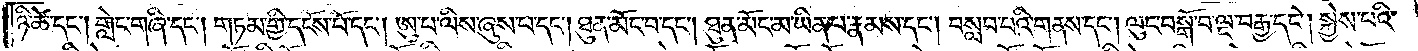ཉི་ཚེ་དང༌། གླེང་གཞི་དང༌། གཏམ་གྱི་དངོས་པོ་དང༌། ཨུ་པ་ལིས་ཞུས་པ་དང༌། ཐུན་མོང་བ་དང༌། ཐུན་མོང་མ་ཡིན་པ་རྣམས་དང༌། བསླབ་པའི་གནས་དང༌། ལུང་བསྒོ་བ་ལྔ་བརྒྱ་དང༌། སྐྱེས་པའི་
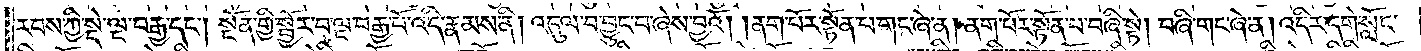རབས་ཀྱི་སྡེ་ལྔ་བརྒྱ་དང༌། སྔོན་གྱི་སྦྱོར་བ་ལྔ་བརྒྱ་པོ་འདི་རྣམས་ནི། འདུལ་བ་བྱུང་བ་ཞེས་བྱའོ། །ནག་པོར་སྟོན་པ་གང་ཞེ་ན། ནག་པོར་སྟོན་པ་བཞི་སྟེ། བཞི་གང་ཞེ་ན། འདིར་དགེ་སློང་
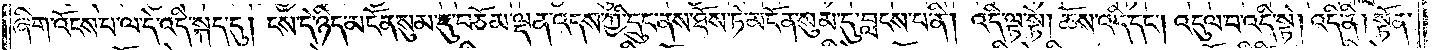ཞིག་འོངས་པ་ལ་དེ་འདི་སྐད་དུ། ངས་དེ་ཉིད་མངོན་སུམ་དུ་བཅོམ་ལྡན་འདས་ཀྱི་དྲུང་ནས་ཐོས་ཏེ་མངོན་སུམ་དུ་བླངས་པ་ནི། འདི་ལྟ་སྟེ། ཆོས་འདི་དང༌། འདུལ་བ་འདི་སྟེ། འདི་ནི། སྟོན་
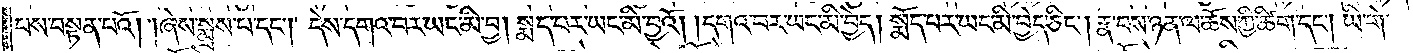པས་བསྟན་པའོ། །ཞེས་སྨྲས་པ་དང༌། དེས་དགའ་བར་ཡང་མི་བྱ། སྨད་པར་ཡང་མི་བྱའོ། །དགའ་བར་ཡང་མི་བྱེད། སྨོད་པར་ཡང་མི་བྱེད་ཅིང༌། རྣ་བས་ཉན་ལ་ཆོས་ཀྱི་ཚིག་དང༌། ཡི་གེ་
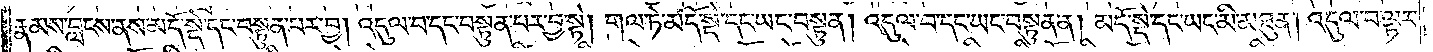རྣམས་བླངས་ནས་མདོ་སྡེ་དང་བསྟུན་པར་བྱ། འདུལ་བ་དང་བསྟུན་པར་བྱ་སྟེ། གལ་ཏེ་མདོ་སྡེ་དང་ཡང་བསྟུན། འདུལ་བ་དང་ཡང་བསྟུན་ན། མདོ་སྡེ་དང་ཡང་མི་མཐུན། འདུལ་བ་ལྟར་
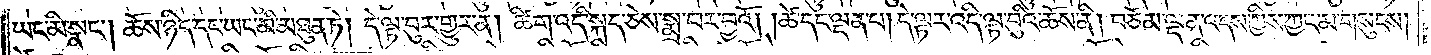ཡང་མི་སྣང༌། ཆོས་ཉིད་དང་ཡང་མི་མཐུན་ཏེ། དེ་ལྟ་བུར་གྱུར་ན། ཚིག་འདི་སྐད་ཅེས་སྨྲ་བར་བྱའོ། །ཚེ་དང་ལྡན་པ། དེ་ལྟར་འདི་ལྟ་བུའི་ཆོས་ནི། བཅོམ་ལྡན་འདས་ཀྱིས་ཀྱང་མ་གསུངས།
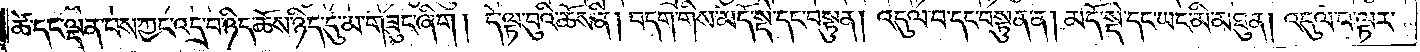ཚེ་དང་ལྡན་པས་ཀྱང་འདྲ་བ་ཉིད་ཆོས་ཉིད་དུ་མ་གཟུང་ཞིག། དེ་ལྟ་བུའི་ཆོས་ནི། བདག་གིས་མདོ་སྡེ་དང་བསྟུན། འདུལ་བ་དང་བསྟུན་ན། མདོ་སྡེ་དང་ཡང་མི་མཐུན། འདུལ་བ་ལྟར་
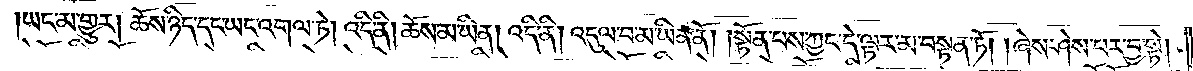ཡང་མ་གྱུར། ཆོས་ཉིད་དང་ཡང་འགལ་ཏེ། འདི་ནི། ཆོས་མ་ཡིན། འདི་ནི། འདུལ་བ་མ་ཡིན། སྟོན་པས་ཀྱང་དེ་ལྟར་མ་བསྟན་ཏོ། །ཞེས་ཤེས་པར་བྱ་སྟེ།
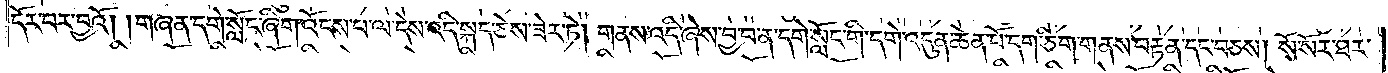དོར་བར་བྱའོ། །གཞན་དགེ་སློང་ཞིག་འོངས་པ་ལ་དེས་འདི་སྐད་ཅེས་ཟེར་ཏེ། གནས་འདི་ཞེས་བྱ་བ་ན་དགེ་སློང་གི་དགེ་འདུན་ཆེན་པོ་དག་ཅིག་གནས་བརྟན་དང་བཅས། སོ་སོར་ཐར་
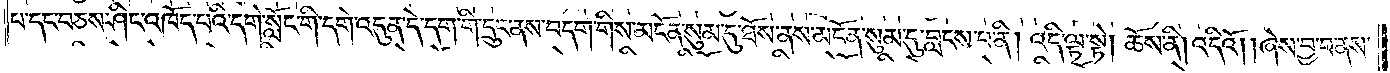པ་དང་བཅས་ཤིང་འཁོད་པའི་དགེ་སློང་གི་དགེ་འདུན་དེ་དག་གི་དྲུང་ནས་བདག་གིས་མངོན་སུམ་དུ་ཐོས་ནས་མངོན་སུམ་དུ་བླངས་པ་ནི། འདི་ལྟ་སྟེ། ཆོས་ནི། འདིའོ། །ཞེས་བྱ་བ་ནས་
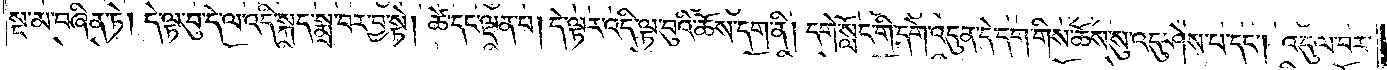སྔ་མ་བཞིན་ཏེ། དེ་ལྟ་བུ་དེ་ལ་འདི་སྐད་སྨྲ་བར་བྱ་སྟེ། ཚེ་དང་ལྡན་པ། དེ་ལྟར་འདི་ལྟ་བུའི་ཆོས་དག་ནི། དགེ་སློང་གི་དགེ་འདུན་དེ་དག་གིས་ཆོས་སུ་འདུ་ཤེས་པ་དང༌། འདུལ་བར་
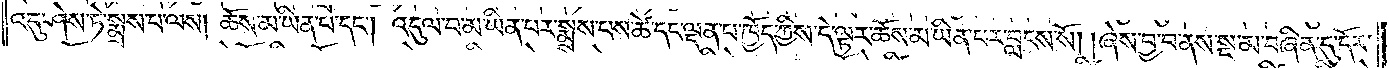འདུ་ཤེས་ཏེ་སྨྲས་པ་ལས། ཆོས་མ་ཡིན་པ་དང༌། འདུལ་བ་མ་ཡིན་པར་སྨྲས་པས་ཚེ་དང་ལྡན་པ་ཁྱོད་ཀྱིས་དེ་ལྟར་ཆོས་མ་ཡིན་པར་བླངས་སོ། །ཞེས་བྱ་བ་ནས་སྔ་མ་བཞིན་དུ་དོར་
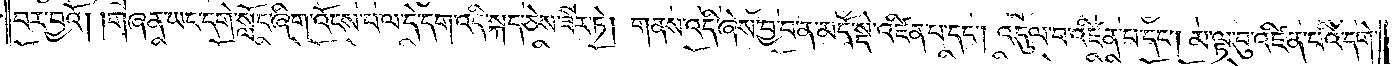བར་བྱའོ། །གཞན་ཡང་དགེ་སློང་ཞིག་འོངས་པ་ལ་དེ་དག་འདི་སྐད་ཅེས་ཟེར་ཏེ། གནས་འདི་ཞེས་བྱ་བ་ན་མདོ་སྡེ་འཛིན་པ་དང༌། འདུལ་བ་འཛིན་པ་དང༌། མ་ལྟ་བུ་འཛིན་པའི་དགེ་
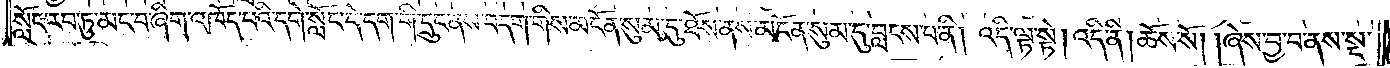སློང་རབ་ཏུ་མང་བ་ཞིག་འཁོད་པའི་དགེ་སློང་དེ་དག་གི་དྲུང་ནས་བདག་གིས་མངོན་སུམ་དུ་ཐོས་ནས་མངོན་སུམ་དུ་བླངས་པ་ནི། འདི་ལྟ་སྟེ། འདི་ནི། ཆོས་སོ། །ཞེས་བྱ་བ་ནས་སྔ་
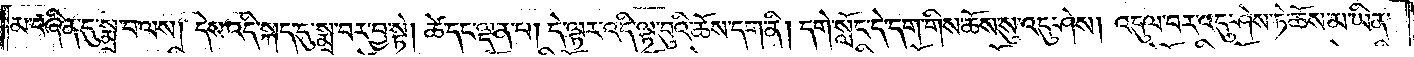མ་བཞིན་དུ་སྨྲ་བ་ལས། དེས་འདི་སྐད་དུ་སྨྲ་བར་བྱ་སྟེ། ཚེ་དང་ལྡན་པ། དེ་ལྟར་འདི་ལྟ་བུའི་ཆོས་དག་ནི། དགེ་སློང་དེ་དག་གིས་ཆོས་སུ་འདུ་ཤེས། འདུལ་བར་འདུ་ཤེས་ཏེ་ཆོས་མ་ཡིན་
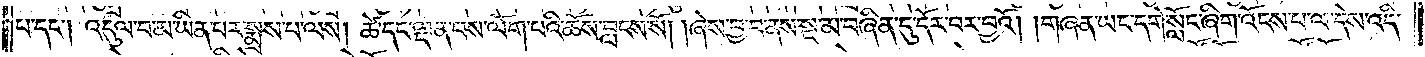པ་དང༌། འདུལ་བ་མ་ཡིན་པར་སྨྲས་པ་ལས། ཚེ་དང་ལྡན་པས་ལོག་པའི་ཆོས་བླངས་སོ། །ཞེས་བྱ་བ་ནས་སྔ་མ་བཞིན་དུ་དོར་བར་བྱའོ། །གཞན་ཡང་དགེ་སློང་ཞིག་འོངས་པ་ལ་དེས་འདི་
